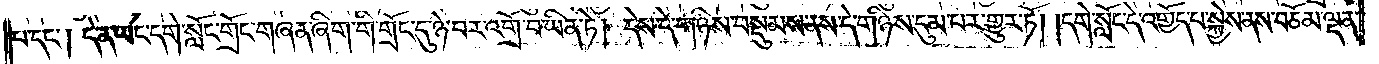པ་དང༌། དེ་ན་ཡང་དགེ་སློང་གྲོང་གཞན་ཞིག་གི་གྲོང་དུ་ཉེ་བར་འགྲོ་བ་ཡིན་ཏེ། དེས་དེ་གཉིས་བསྡུམས་ནས་དེ་གཉིས་དུམ་པར་གྱུར་ཏོ། །དགེ་སློང་དེ་འགྱོད་པ་སྐྱེས་ནས་བཅོམ་ལྡན་
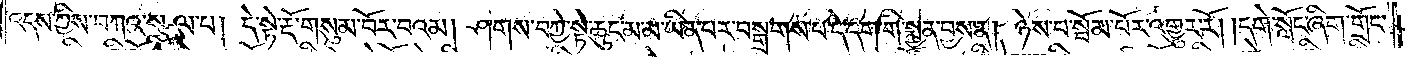འདས་ཀྱིས་བཀའ་སྩལ་པ། དེ་སྟེ་རྡོ་གསུམ་བོར་བའམ། ཤགས་བཀྱེ་སྟེ་ཆུང་མ་མ་ཡིན་པར་བསྒྲགས་པ་དེ་དག་གི་སྨྱན་བྱས་ན། ཉེས་པ་སྦོམ་པོར་འགྱུར་རོ། །དགེ་སློང་ཞིག་གྲོང་
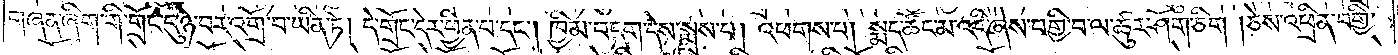གཞན་ཞིག་གི་གྲོང་དུ་ཉེ་བར་འགྲོ་བ་ཡིན་ཏེ། དེ་གྲོང་དེར་ཕྱིན་པ་དང༌། ཁྱིམ་བདག་དེས་སྨྲས་པ། འཕགས་པ། སྨད་ཚོང་མ་འདི་ཞེས་བགྱི་བ་ལ་ཚུར་ཤོག་ཅིག །ཅེས་འཕྲིན་བགྱི་
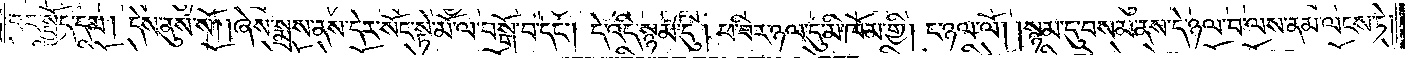བར་སྤྱོད་དམ། དེས་ནུས་སོ། །ཞེས་སྨྲས་ནས་དེར་སོང་སྟེ་མོ་ལ་བསྒོ་བ་དང༌། དེ་འདི་སྙམ་དུ། ཕ་བིར་ཉལ་དུ་མི་ཁོམ་གྱི། ང་ཉལ་ལོ། །སྙམ་དུ་བསམ་ནས་དེ་ཉལ་བ་ལས་ནམ་ལངས་ཏེ།
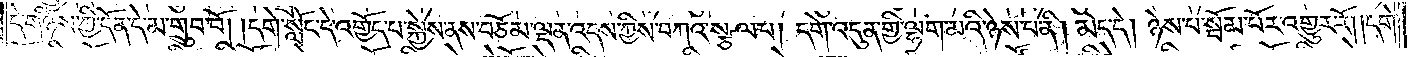དེ་གཉིས་ཀྱི་དོན་དེ་མ་གྲུབ་བོ། །དགེ་སློང་དེ་འགྱོད་པ་སྐྱེས་ནས་བཅོམ་ལྡན་འདས་ཀྱིས་བཀའ་སྩལ་པ། དགེ་འདུན་གྱི་ལྷག་མའི་ཉེས་པ་ནི། མེད་དེ། ཉེས་པ་སྡོམ་པར་འགྱུར་རོ། །དགེ་
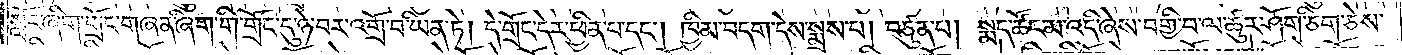སློང་ཞིག་གྲོང་གཞན་ཞིག་གི་གྲོང་དུ་ཉེ་བར་འགྲོ་བ་ཡིན་ཏེ། དེ་གྲོང་དེར་ཕྱིན་པ་དང༌། ཁྱིམ་བདག་དེས་སྨྲས་པ། བཙུན་པ། སྨད་ཚོང་མ་འདི་ཞེས་བགྱི་བ་ལ་ཚུར་ཤོག་ཅིག་ཅེས་
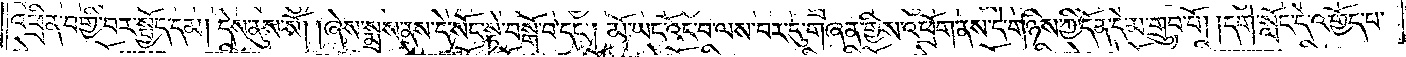འཕྲིན་བགྱི་བར་སྤྱོད་དམ། དེས་ནུས་སོ། །ཞེས་སྨྲས་ནས་དེ་སོང་སྟེ་བསྒོ་བ་དང༌། མོ་ཡང་འོང་བ་ལས་བར་དུ་གཞན་གྱིས་འཕྲོག་ནས་དེ་གཉིས་ཀྱི་དོན་དེ་མ་གྲུབ་བོ། །དགེ་སློང་དེ་འགྱོད་པ་
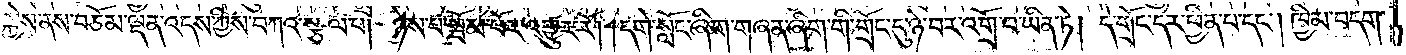སྐྱེས་ནས་བཅོམ་ལྡན་འདས་ཀྱིས་བཀའ་སྩལ་པ། ཉེས་པ་སྦོམ་པོར་འགྱུར་རོ། །དགེ་སློང་ཞིག་གཞན་ཞིག་གི་གྲོང་དུ་ཉེ་བར་འགྲོ་བ་ཡིན་ཏེ། དེ་གྲོང་དེར་ཕྱིན་པ་དང༌། ཁྱིམ་བདག་
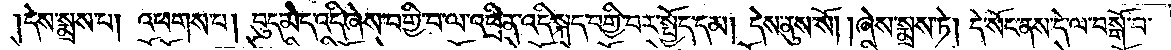དེས་སྨྲས་པ། འཕགས་པ། བུད་མེད་འདི་ཞེས་བགྱི་བ་ལ་འཕྲིན་འདི་སྐད་བགྱི་བར་སྤྱོད་དམ། དེས་ནུས་སོ། །ཞེས་སྨྲས་ཏེ། དེ་སོང་ནས་དེ་ལ་བསྒོ་བ་
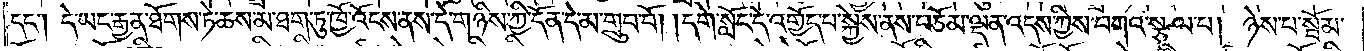དང༌། དེ་ཡང་རྒྱན་ཐོགས་ཏེ་ཆས་མ་ཐག་ཏུ་ཁྱོ་འོངས་དེ་གཉིས་ཀྱི་དོན་དེ་མ་གྲུབ་བོ། །དགེ་སློང་དེ་འགྱོད་པ་སྐྱེས་ནས་བཅོམ་ལྡན་འདས་ཀྱིས་བཀའ་སྩལ་པ། ཉེས་པ་སྦོམ་
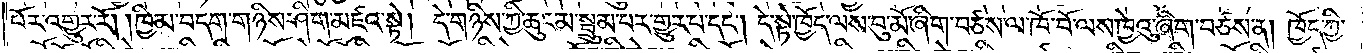པོར་འགྱུར་རོ། །ཁྱིམ་བདག་གཉིས་ཤིག་མཛའ་སྟེ། དེ་གཉིས་ཀྱི་ཆུང་མ་སྦྲུམ་པར་གྱུར་པ་དང༌། དེ་སྟེ་ཁྱོད་ལས་བུ་མོ་ཞིག་བཙས་ལ་ཁོ་བོ་ལས་ཁྱེའུ་ཞིག་བཙས་ན། ཁྱོད་ཀྱི་
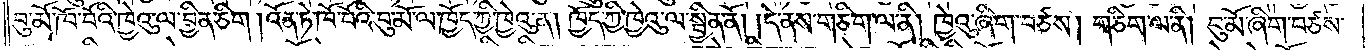བུ་མོ་ཁོ་བོའི་ཁྱེའུ་ལ་བྱིན་ཅིག །འོན་ཏེ་ཁོ་བོའི་བུ་མོ་ལ་ཁྱོད་ཀྱི་ཁྱེའུ་ན། ཁྱོད་ཀྱི་ཁྱེའུ་ལ་སྦྱིན་ནོ། །དེ་ནས་གཅིག་ལ་ནི། ཁྱེའུ་ཞིག་བཙས། གཅིག་ལ་ནི། བུ་མོ་ཞིག་བཙས་
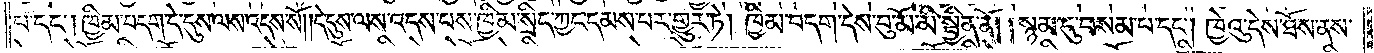པ་དང༌། ཁྱིམ་བདག་དེ་དུས་ལས་འདས་སོ། །དེ་དུས་ལས་འདས་པས་ཁྱིམ་སྲིད་ཀྱང་དམས་པར་གྱུར་ཏེ། ཁྱིམ་བདག་དེས་བུ་མོ་མི་སྦྱིན་ནོ། །སྙམ་དུ་བསམ་པ་དང༌། ཁྱེའུ་དེས་ཐོས་ནས་
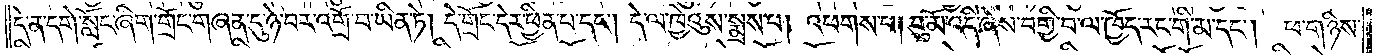དེ་ན་དགེ་སློང་ཞིག་གྲོང་གཞན་དུ་ཉེ་བར་འགྲོ་བ་ཡིན་ཏེ། དེ་གྲོང་དེར་ཕྱིན་པ་དང༌། དེ་ལ་ཁྱེའུས་སྨྲས་པ། འཕགས་པ། བུ་མོ་འདི་ཞེས་བགྱི་བ་ལ་ཁྱོད་རང་གི་མ་དང༌། ཕ་གཉིས་
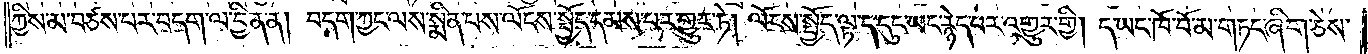ཀྱིས་མ་བཙས་པར་བདག་ལ་བྱིན་ན། བདག་ཀྱང་ལས་སྨིན་པས་ལོངས་སྤྱོད་དམས་པར་གྱུར་ཏེ། ལོངས་སྤྱོད་ལྟ་ད་དུང་ཡང་རྙེད་པར་འགྱུར་གྱི་།ད་ཡང་ཁོ་བོ་མ་གཏང་ཞིག་ཅེས་
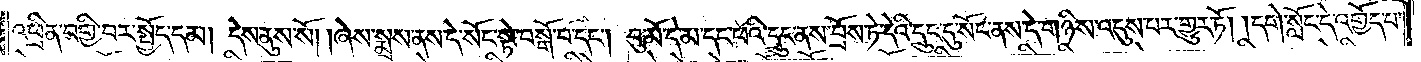འཕྲིན་བགྱི་བར་སྤྱོད་དམ། དེས་ནུས་སོ། །ཞེས་སྨྲས་ནས་དེ་སོང་སྟེ་བསྒོ་བ་དང༌། བུ་མོ་དེ་མ་དང་ཕའི་དྲུང་ནས་བྲོས་ཏེ་དེའི་དྲུང་དུ་སོང་ནས་དེ་གཉིས་འདུས་པར་གྱུར་ཏོ། དགེ་སློང་དེ་འགྱོད་པ་
